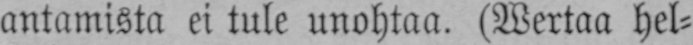antamista ei tule unohtaa. (Wertaa Hel-
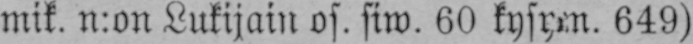mik. n:on Lukijain os. siw. 60 kysym. 649)
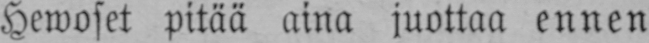Hewoset pitää aina juottaa ennen
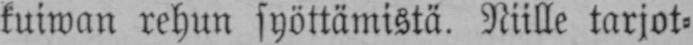kuiwan rehun syöttämistä. Niille tarjot-
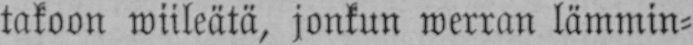takoon wiileätä, jonkun werran lämmin-
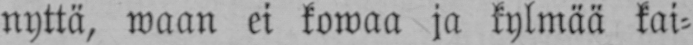nyttä, waan ei kowaa ja kylmää kai-
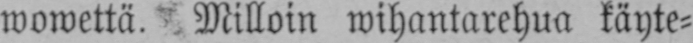wowettä. Milloin wihantarehua käyte-
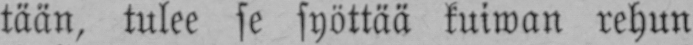tään, tulee se syöttää kuiwan rehun
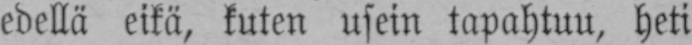edellä eikä, kuten usein tapahtuu, heti
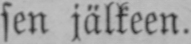sen jälkeen.
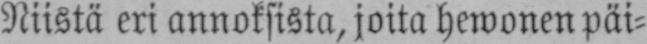Niistä eri annoksista, joita hewonen päi-
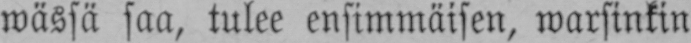wässä saa, tulee ensimmäisen, warsinkin
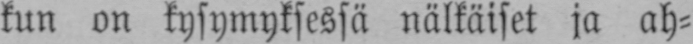kun on kysymyksessä nälkäiset ja ah-
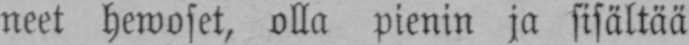neet hewoset, olla pienin ja sisältää
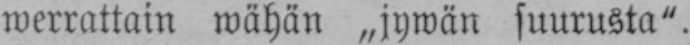werrattain wähän „jywän suurusta".
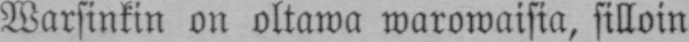Warsinkin on ottawa warowaisia, silloin
